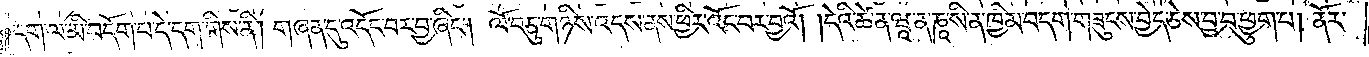དག་ལ་མི་བདོག་པ་དེ་དག་གིས་ནི། གཞན་དུ་འདོང་བར་བྱ་ཞིང༌། ལོ་བཅུ་གཉིས་འདས་ནས་ཕྱིར་འོང་བར་བྱའོ། །དེའི་ཚེ་ན་ཝཱ་ན་ཎཱ་སི་ན་ཁྱིམ་བདག་གཟུངས་བྱེད་ཅེས་བྱ་བ་ཕྱུག་པ། ནོར་
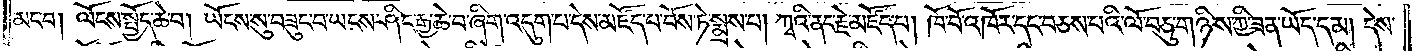མང་བ། ལོངས་སྤྱོད་ཆེ་བ། ཡོངས་སུ་བཟུང་བ་ཡངས་ཤིང་རྒྱ་ཆེ་བ་ཞིག་འདུག་པ་དེས་མཛོད་པ་བོས་ཏེ་སྨྲས་པ། ཀྭའི་ནང་རྗེ་མཛོད་པ། ཁོ་བོ་འཁོར་དང་བཅས་པའི་ལོ་བཅུ་གཉིས་ཀྱི་ཟན་ཡོད་དམ། དེས་
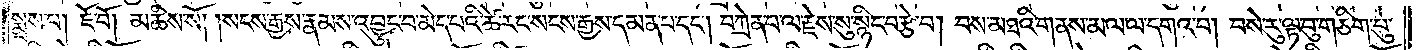སྨྲས་པ། ཇོ་བོ། མཆིས་སོ། །སངས་རྒྱས་རྣམས་འབྱུང་བ་མེད་པའི་ཚེ་རང་སངས་རྒྱས་དམན་པ་དང༌། བཀྲེན་པ་ལ་རྗེས་སུ་སྙིང་བརྩེ་བ། བས་མཐའི་གནས་མལ་ལ་དགའ་བ། བསེ་རུ་ལྟ་བུ་གཅིག་པུ་
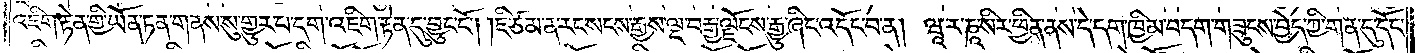འཇིག་རྟེན་གྱི་ཡོན་ཏན་གནས་སུ་གྱུར་པ་དག་འཇིག་རྟེན་དུ་བྱུང་ངོ༌། །ཇི་ཙམ་ན་རང་སངས་རྒྱས་ལྔ་བརྒྱ་ལྗོངས་རྒྱུ་ཞིང་འདོང་བ་ན། ཝཱ་ར་ཎཱ་སིར་ཕྱིན་ནས་དེ་དག་ཁྱིམ་བདག་གཟུངས་བྱེད་ཀྱི་གན་དུ་དོང་
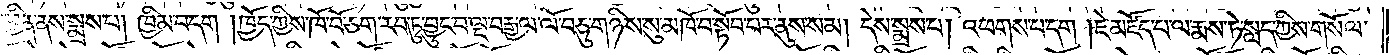དུ་ཕྱིན་ནས་སྨྲས་པ། ཁྱིམ་བདག །ཁྱོད་ཀྱིས་ཁོ་བོ་ཅག་རབ་ཏུ་བྱུང་བ་ལྔ་བརྒྱ་ལ་ལོ་བཅུ་གཉིས་སུ་མཁོ་བ་སྟོབ་པར་ནུས་སམ། དེས་སྨྲས་པ། འཕགས་པ་དག །ཇེ་མཛོད་པ་ལ་རྨས་ཏེ་སླད་ཀྱིས་གསོལ་
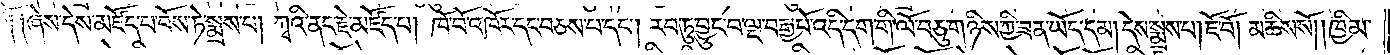ལོ༑ ༑ཞེས་དེས་མཛོད་པ་པོས་ཏེ་སྨྲས་པ། ཀྭའི་ནང་རྗེ་མཛོད་པ། ཁོ་བོ་འཁོར་དང་བཅས་པ་དང༌། རབ་ཏུ་བྱུང་བ་ལྔ་བརྒྱ་པོ་འདི་དག་གི་ལོ་བཅུ་གཉིས་ཀྱི་ཟན་ཡོད་དམ། དེས་སྨྲས་པ། ཇོ་བོ། མཆིས་སོ། །ཁྱིམ་
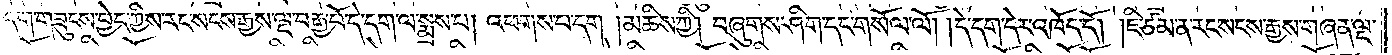བདག་གཟུངས་བྱེད་ཀྱིས་རང་སངས་རྒྱས་ལྔ་བརྒྱ་པོ་དེ་དག་ལ་སྨྲས་པ། འཕགས་པ་དག །མཆིས་ཀྱི། བཞུགས་ཤིག་དང་གསོལ་ལོ། །དེ་དག་དེར་འཁོད་དོ། །ཇི་ཙམ་ན་རང་སངས་རྒྱས་གཞན་ལྔ་
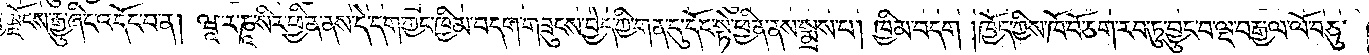ལྗོངས་རྒྱུ་ཞིང་འདོང་བ་ན། ཝཱ་ར་ཎཱ་སིར་ཕྱིན་ནས་དེ་དག་ཀྱང་ཁྱིམ་བདག་གཟུངས་བྱེད་ཀྱི་གན་དུ་དོང་སྟེ་ཕྱིན་ནས་སྨྲས་པ། ཁྱིམ་བདག །ཁྱོད་ཀྱིས་ཁོ་བོ་ཅག་རབ་ཏུ་བྱུང་བ་ལྔ་བརྒྱ་ལ་ལོ་བཅུ་
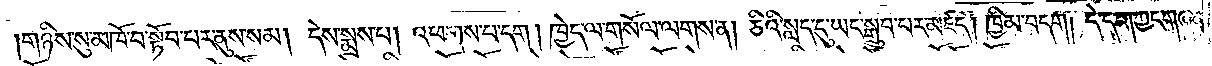།གཉིས་སུ་མཁོ་བ་སྟོབ་པར་ནུས་སམ། དེས་སྨྲས་པ། འཕགས་པ་དག། ཁྱེད་ལ་གསོལ་ལགས་ན། ཅིའི་སླད་དུ་ཡང་སྒྲུབ་པར་མཛད། ཁྱིམ་བདག། དེ་དག་ཀྱང་གཞན་
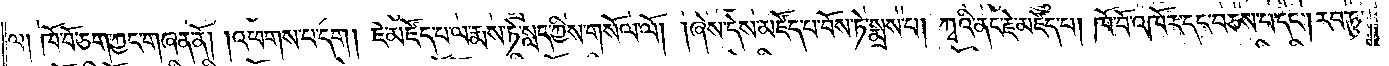ལ། ཁོ་བོ་ཅག་ཀྱང་གཞན་ནོ། །འཕགས་པ་དག། ཇེ་མཛོད་པ་ལ་རྨས་ཏེ་སླད་ཀྱིས་གསོལ་ལོ། །ཞེས་དེས་མཛོད་པ་བོས་ཏེ་སྨྲས་པ། ཀྭའི་ནང་རྗེ་མཛོད་པ། ཁོ་བོ་འཁོར་དང་བཅས་པ་དང༌། རབ་ཏུ་
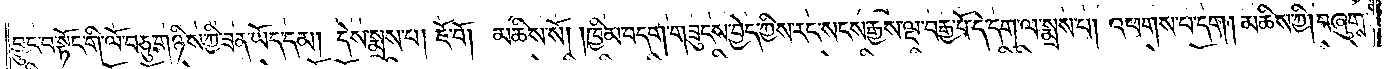བྱུང་བ་སྟོང་གི་ལོ་བཅུ་གཉིས་ཀྱི་ཟན་ཡོད་དམ། དེས་སྨྲས་པ། ཇོ་བོ། མཆིས་སོ། །ཁྱིམ་བདག་གཟུངས་བྱེད་ཀྱིས་རང་སངས་རྒྱས་ལྔ་བརྒྱ་པོ་དེ་དག་ལ་སྨྲས་པ། འཕགས་པ་དག། མཆིས་ཀྱི། བཞུགས་
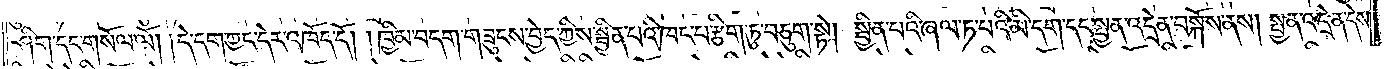ཤིག་དང་གསོལ་ལོ། །དེ་དག་ཀྱང་དེང་འཁོད་དོ། །ཁྱིམ་བདག་གཟུངས་བྱེད་ཀྱིས་སྦྱིན་པའི་ཁང་པ་རྩིག་ཏུ་བཅུག་སྟེ། སྦྱིན་པའི་ཞལ་ཏ་བའི་མི་དག་དང་སྤྱན་འདྲེན་བསྐོས་ནས། སྤྱན་འདྲེན་དེས་
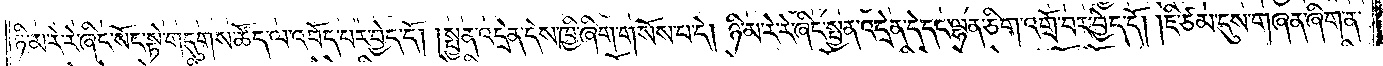ཉི་མ་རེ་རེ་ཞིང་སོང་སྟེ་གདུགས་ཚོད་ལ་འབོད་པར་བྱེད་དོ། །སྤྱན་འདྲེན་དེས་ཁྱི་ཞིག་གསོས་པ་དེ། ཉི་མ་རེ་རེ་ཞིང་སྤྱན་འདྲེན་དེ་དང་ལྷན་ཅིག་འགྲོ་བར་བྱེད་དོ། །ཇི་ཙམ་དུས་གཞན་ཞིག་ན་
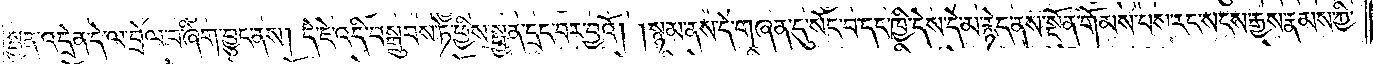སྤྱན་འདྲེན་དེ་ལ་བྲེལ་བ་ཞིག་བྱུང་ནས། དེ་ཇེ་འདི་བསྒྲུབས་ཏེ་ཕྱིས་སྤྱན་དྲང་བར་བྱའོ། །སྙམ་ནས་དེ་གཞན་དུ་སོང་བ་དང་ཁྱི་དེས་དེ་མ་རྙེད་ནས་སྔོན་གོམས་པས་རང་སངས་རྒྱས་རྣམས་ཀྱི་
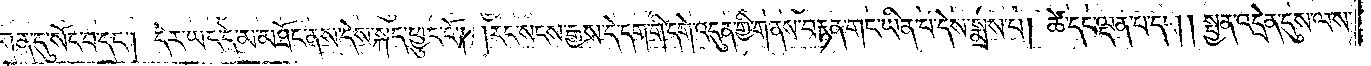གན་དུ་སོང་བ་དང༌། དེར་ཡང་དེ་མ་མཐོང་ནས་དེས་སྐད་ཕྱུང་ངོ༌། །རང་སངས་རྒྱས་དེ་དག་གི་དགེ་འདུན་གྱི་གནས་བརྟན་གང་ཡིན་པ་དེས་སྨྲས་པ། ཚེ་དང་ལྡན་པ་དག །སྤྱན་འདྲེན་དུས་ལས་
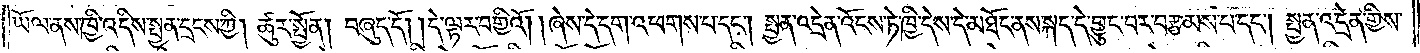ཡོལ་ནས་ཁྱི་འདིས་སྤྱན་དྲངས་ཀྱི། ཚུར་སྤྱོན། བཞུད་དོ། །དེ་ལྟར་བགྱིའོ། །ཞེས་དེ་དག་འཕགས་པ་དང༌། སྤྱན་འདྲེན་འོངས་ཏེ་ཁྱི་དེས་དེ་མཐོང་ནས་སྐད་དེ་བྱུང་བར་བརྩམས་པ་དང༌། སྤྱན་འདྲེན་གྱིས་
